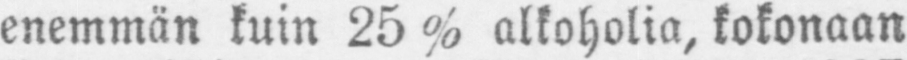enemmän kuin 25 % alkoholia, kokonaan
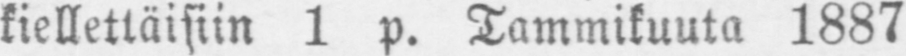kiellettäisiin 1 p. Tammikuuta 1887
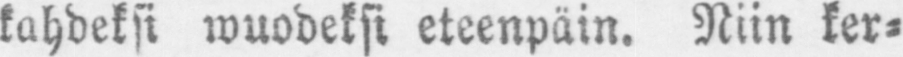kahdeksi wuodeksi eteenpäin. Niin ker-
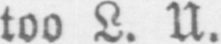too L. U.
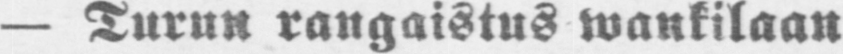— Turun rangaistus wankilaan
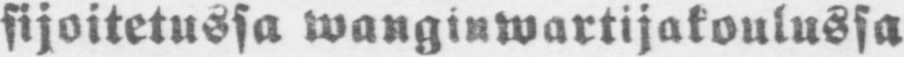sijoitetussa wanginwartijakoulussa
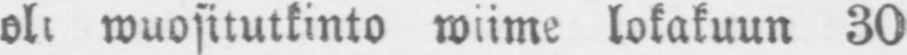oli wuositutkinto wiime lokakuun 30
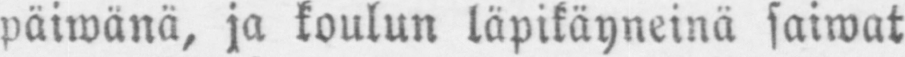päiwänä, ja koulun läpikäyneinä saiwat
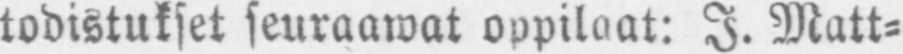todistukset seuraawat oppilaat: I. Matt-
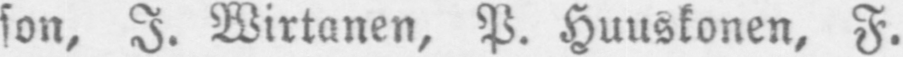son, I. Wirtanen, P. Huuskonen, F.
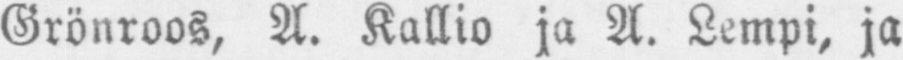Grönroos, A. Kallio ja A. Lempi, ja
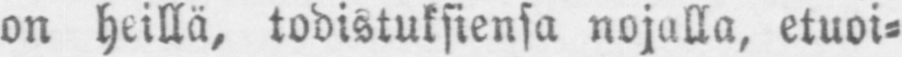on heillä, todistukseensa nojalla, etuoi-
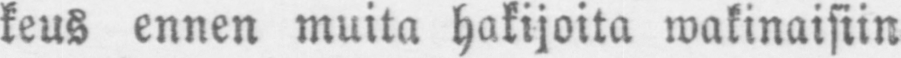keus ennen muita hakijoita wakinaisiin
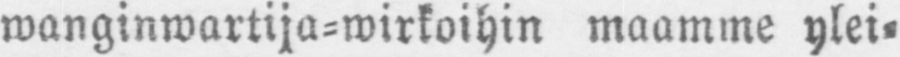wanginwartija-wirkoihin maamme ylei-
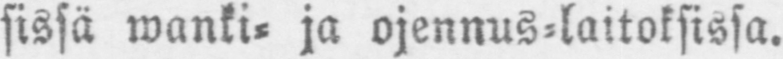sissä wanki- ja ojennus-laitoksissa.
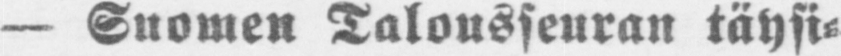— Suomen Talousseuran täysi-
